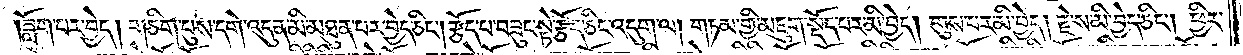ཟློག་པར་བྱེད། གཅིག་པུས་དགེ་འདུན་མི་མཐུན་པར་བྱེད་ཅིང༌། རྩོད་པ་བཟུང་སྟེ་རྩོད་ཅིང་འདུག་ལ། གཏམ་གྱི་མཇུག་སྡོད་པར་མི་བྱེད། གུས་པར་མི་བྱེད། རྗེ་ས་མི་བྱེད་ཅིང༌། ཕྱིར་
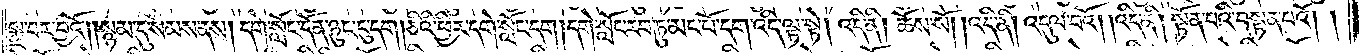སྨྲ་བར་བྱའོ། །སྙམ་དུ་སེམས་ནས། དགེ་སློང་དོན་ཉུང་ངུ་དག །ཅིའི་ཕྱིར་དགེ་སློང་དག །དགེ་སློང་རབ་ཏུ་མང་པོ་དག་འདི་ལྟ་སྟེ། འདི་ནི། ཆོས་སོ། །འདི་ནི། འདུལ་བའོ། །འདི་ནི། སྟོན་པའི་བསྟན་པའོ། །
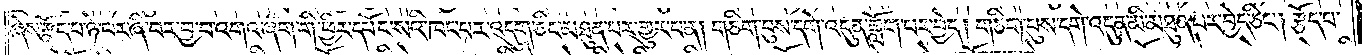ཞེས་རྩོད་པ་ཉེ་བར་ཞི་བར་བྱ་བ་འགའ་ཞིག་གི་ཕྱིར་དཔོང་སའི་ཁང་པར་འདུག་ཅིང་མཐུན་པར་གྱུར་པ་ན། གཅིག་པུས་དགེ་འདུན་ཟློག་པར་བྱེད། གཅིག་པུས་དགེ་འདུན་མི་མཐུན་པར་བྱེད་ཅིང༌། རྩོད་པ་
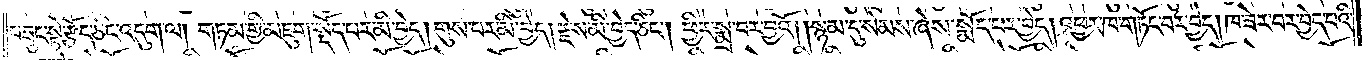བཟུང་སྟེ་རྩོད་ཅིང་འདུག་ལ། གཏམ་གྱི་མཇུག་སྡོད་པར་མི་བྱེད། གུས་པར་མི་བྱེད། རྗེས་མི་བྱེད་ཅིང༌། ཕྱིར་སྨྲ་བར་བྱའོ། །སྙམ་དུ་སེམས་ཞེས་སྨོད་པར་བྱེད། འཕྱར་ཁ་གཏོང་བར་བྱེད། ཁ་ཟེར་བར་བྱེད་པའི་
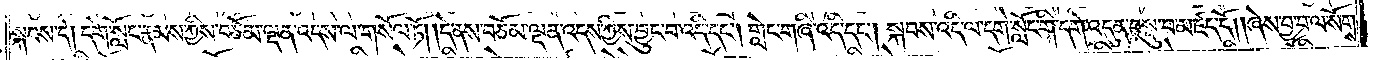སྐབས་དེ། དགེ་སློང་རྣམས་ཀྱིས་བཅོམ་ལྡན་འདས་ལ་གསོལ་ཏོ། །དེ་ནས་བཅོམ་ལྡན་འདས་ཀྱིས་བྱུང་བ་འདི་དང༌། གླེང་གཞི་འདི་དང༌། སྐབས་འདི་ལ་དགེ་སློང་གི་དགེ་འདུན་བསྡུ་བ་མཛད་དོ། །ཞེས་བྱ་བ་ལ་སོགས་
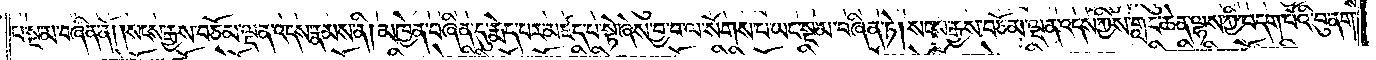པ་སྔ་མ་བཞིན་ནོ། །སངས་རྒྱས་བཅོམ་ལྡན་འདས་རྣམས་ནི། མཁྱེན་བཞིན་དུ་རྨེད་པར་མཛད་པ་སྟེ་ཞེས་བྱ་བ་ལ་སོགས་པ་ཡང་སྔ་མ་བཞིན་ཏེ།སངས་རྒྱས་བཅོམ་ལྡན་འདས་ཀྱིས་གླང་ཆེན་ལྷས་ཀྱི་བདག་པོའི་བུ་ནག་
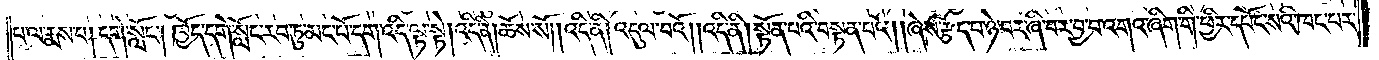པ་ལ་རྨས་པ། དགེ་སློང༌། ཁྱོད་དགེ་སློང་རབ་ཏུ་མང་པོ་དག་འདི་ལྟ་སྟེ། འདི་ནི། ཆོས་སོ། །འདི་ནི། འདུལ་བའོ༎འདི་ནི། སྟོན་པའི་བསྟན་པའོ༎ཞེས་རྩོད་པ་ཉེ་བར་ཞི་བར་བྱ་བ་འགའ་ཞིག་གི་ཕྱིར་དཔོང་སའི་ཁང་པར་
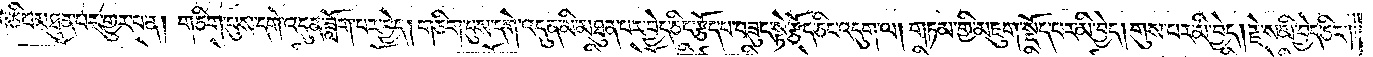འདུག་ཅིང་མཐུན་པར་གྱུར་པ་ན། གཅིག་པུས་དགེ་འདུན་ཟློག་པར་བྱེད། གཅིག་པུས་དགེ་འདུན་མི་མཐུན་པར་བྱེད་ཅིང་རྩོད་པ་བཟུང་སྟེ་རྩོད་ཅིང་འདུག་ལ། གཏམ་གྱི་མཇུག་སྡོད་པར་མི་བྱེད། གུས་པར་མི་བྱེད། རྗེ་ས་མི་བྱེད་ཅིང༌།
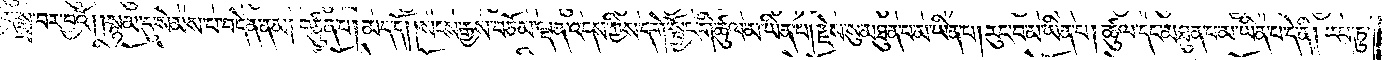ཕྱིར་སྨྲ་བར་བྱའོ། །སྙམ་དུ་སེམས་པ་བདེན་ནམ། བཙུན་པ། མད་དོ། །སངས་རྒྱས་བཅོམ་ལྡན་འདས་ཀྱིས་དགེ་སྦྱོང་གི་ཚུལ་མ་ཡིན་པ། རྗེས་སུ་མཐུན་པ་མ་ཡིན་པ། རུང་བ་མ་ཡིན་པ། ཚུལ་དང་མཐུན་པ་མ་ཡིན་པ་དེ་ནི། རབ་ཏུ་
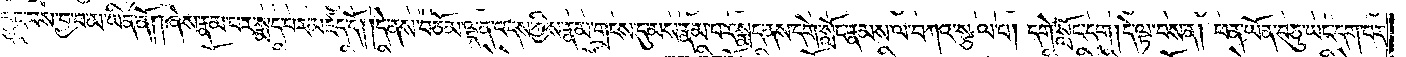བྱུང་བས་བྱ་བ་མ་ཡིན་ནོ། །ཞེས་རྣམ་པར་སྨད་པར་མཛད་དོ། །དེ་ནས་བཅོམ་ལྡན་འདས་ཀྱིས་རྣམ་གྲངས་དུ་མས་རྣམ་པར་སྨད་ནས་དགེ་སློང་རྣམས་ལ་བཀའ་སྩལ་པ། དགེ་སློང་དག།དེ་ལྟ་བས་ན། ཕན་ཡོན་བཅུ་ཡང་དག་པར་
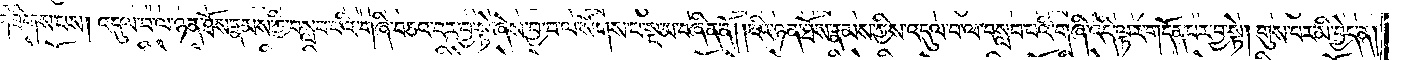གཟིགས་པས། འདུལ་བ་ལ་ཉན་ཐོས་རྣམས་ཀྱི་བསླབ་པའི་གཞི་བཅའ་བར་བྱ་སྟེ་ཞེས་བྱ་བ་ལ་སོགས་པ་སྔ་མ་བཞིན་ནོ༎ངའི་ཉན་ཐོས་རྣམས་ཀྱིས་འདུལ་བ་ལ་བསླབ་པའི་གཞི་འདི་ལྟར་གདོན་པར་བྱ་སྟེ། གུས་པར་མི་བྱེད་ན།
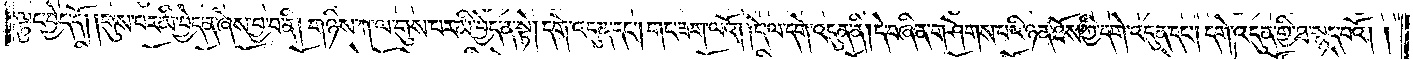ལྟུང་བྱེད་དོ༎གུས་པར་མི་བྱེད་ན་ཞེས་བྱ་བ་ནི། གཉིས་ཀ་ལ་གུས་པར་མི་བྱེད་ན་སྟེ།དགེ་འདུན་དང༌། གང་ཟག་ལའོ༎དེ་ལ་དགེ་འདུན་ནི། དེ་བཞིན་གཤེགས་པའི་ཉན་ཐོས་ཀྱི་དགེ་འདུན་དང༌། དགེ་འདུན་གྱི་ཐ་སྙད་པའོ། །
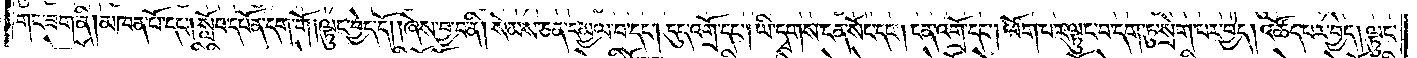གང་ཟག་ནི། མཁན་པོ་དང༌། སློབ་དཔོན་དག་གོ།ལྟུང་བྱེད་དོ། །ཞེས་བྱ་བ་ནི། སེམས་ཅན་དམྱལ་བ་དང༌། དུད་འགྲོ་དང༌། ཡི་དྭགས་ངན་སོང་དང༌། ངན་འགྲོ་དང༌། ལོག་པར་ལྟུང་བ་དག་ཏུ་སྲེག་པར་བྱེད། འཚོད་པར་བྱེད། ལྟུང་
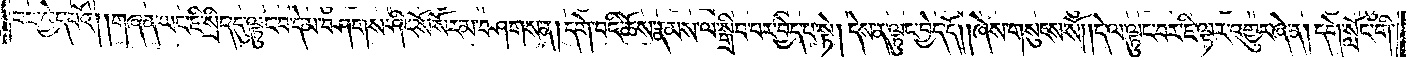བར་བྱེད་པའོ༎གཞན་ཡང་ཇི་སྲིད་དུ་ལྟུང་བ་དེ་མ་བཤགས་ཤིང་སོ་སོར་མ་བཤགས་ན།དགེ་བའི་ཆོས་རྣམས་ལ་སྒྲིབ་པར་བྱེད་པ་སྟེ། དེས་ན་ལྟུང་བྱེད་དོ། །ཞེས་གསུངས་སོ༎དེ་ལ་ལྟུང་བར་ཇི་ལྟར་འགྱུར་ཞེ་ན། དགེ་སློང་གི་
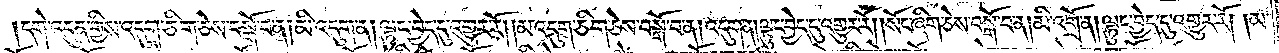དགེ་འདུན་གྱིས་འདུག་ཅིག་ཅེས་བསྒོ་བ་ན།མི་འདུག་ན། ལྟུང་བྱེད་དུ་འགྱུར་རོ། །མ་འདུག་ཅིག་ཅེས་བསྒོ་བ་ན། འདུག་ན། ལྟུང་བྱེད་དུ་འགྱུར་རོ༎སོང་ཞིག་ཅེས་བསྒོ་བ་ན། མི་འགྲོ་ན།ལྟུང་བྱེད་དུ་འགྱུར་རོ། །མ་
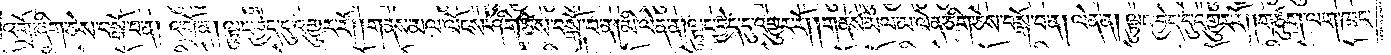འགྲོ་ཞིག་ཅེས་བསྒོ་བ་ན། འགྲོ་ན། ལྟུང་བྱེད་དུ་འགྱུར་རོ༎གནས་མལ་ལོངས་ཤིག་ཅེས་བསྒོ་བ་ན། མི་ལེན་ན། ལྟུང་བྱེད་དུ་འགྱུར་རོ༎གནས་མལ་མ་ལེན་གཅིག་ཅེས་བསྒོ་བ་ན། ལེན་ན། ལྟུང་བྱེད་དུ་འགྱུར་རོ། །གཙུག་ལག་ཁང་
